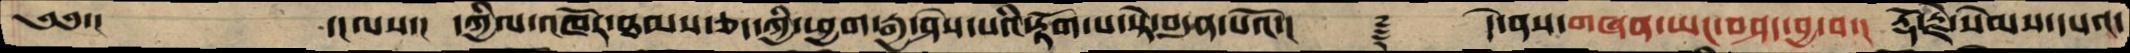༄༅་།         ་།ལས་།  དཀྱིལ་འཁོར་ཐམས་ཅད་ཀྱི་ཕྱག་རྒྱ་ཤེས་པའི་རྟོག་པ་སྟེ་བདུན་པའོ་།   ࿑   དེ་ནས་གཞན་ཡང་བཤད་བྱ་བ་།  རྡོ་རྗེ་སེམས་དཔའ་
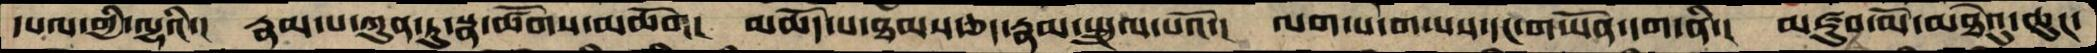དཔལ་གྱི་ལྷའི་།  རྣམ་པ་ཀུན་ཏུ་སྣ་ཚོགས་མཆོག།  མཆོད་པ་ཐམས་ཅད་རྣམ་སྤྲུལ་པའོ་།  ལག་པ་གཡས་དང་གཡོན་དག་ནི་།  མཛུབ་མོ་མཐེའུ་ཆུང་
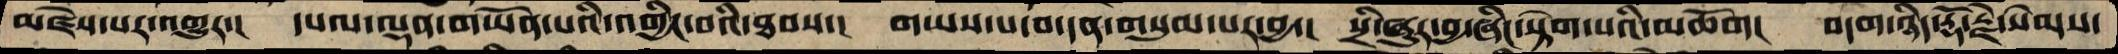མཛེས་པར་འགྱུར་།  དཔལ་ལྡན་གཡོན་པའི་འགྱིང་བའི་ཐབས་།  གཡས་པ་བ་དན་གསུམ་པར་བྱ་།  སྲི་ཞུར་བྱ་ཞིང་སྟེག་པའི་མཆོག།  བདག་ཉིད་རྡོ་རྗེ་སེམས་
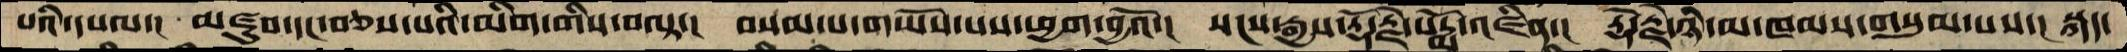པའི་དཔལ་།  མཛུབ་དང་བཅས་པའི་མིག་གིས་བལྟ་།  བསམ་པ་གཡོས་པས་ཕྱག་བྱའོ་།  སངས་རྒྱས་རྡོ་རྗེ་པདྨོ་འཛིན་།  རྡོ་རྗེ་ཉི་མ་ཁམས་གསུམ་པས་།  སྐད་
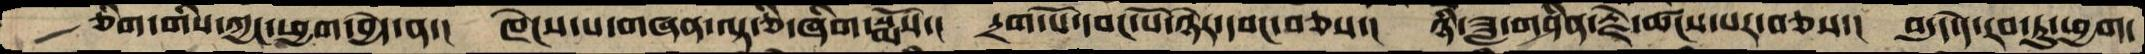ཅིག་གིས་ཀྱང་ཕྱག་བྱེད་ན་།  ཁེངས་པ་གཞན་ལྟ་ཅི་ཞིག་སྨོས་།  དྲག་པོ་དབང་པོ་ཉེར་དབང་བཅས་།  ཉི་ཟླ་གཤིན་རྗེ་ཚངས་པར་བཅས་།  བདུད་དེ་རབ་ཏུ་ཕྱག་
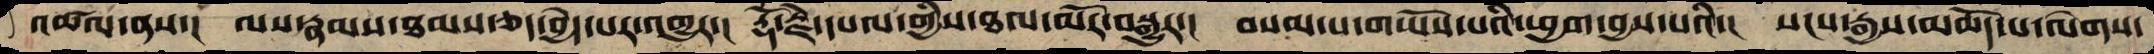འཚལ་ནས་།  ལས་རྣམས་ཐམས་ཅད་བྱེད་པར་འགྱུར་།  རྡོ་རྗེ་དཔལ་གྱིས་ཐལ་མོར་བསྒྱུར་།  བསམ་པ་གཡོས་པའི་ཕྱག་བྱས་པའི་།  སངས་རྒྱས་མཆོད་པ་ལེགས་
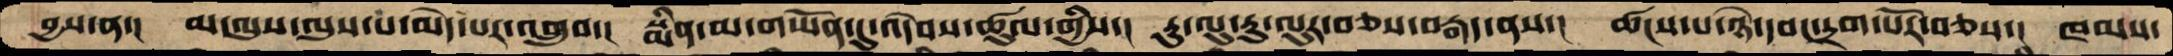བྱས་ན་།  མ་ལུས་ལུས་པ་མེད་པར་འགྲུབ་།  སྨིན་མ་གཡོན་དུ་འདེབས་ཚུལ་གྱིས་།  རུ་ལུ་རུ་ལུར་བཅས་བརྒད་ནས་།  ཚངས་པ་ཉེ་དབང་དྲག་པོར་བཅས་།  ཁམས་
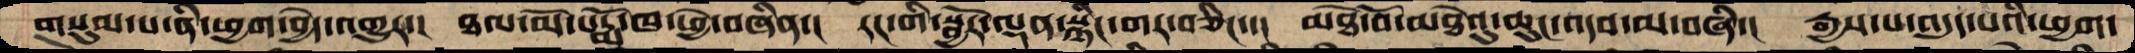གསུམ་པ་ནི་ཕྱག་བྱེད་འགྱུར་།  ཐལ་མོ་པདྨོ་ཁ་ཕྱེ་བཞིན་།  རང་གི་སྦྱོར་ལྡན་སྙིང་གར་བཅིང་་།  མཐེ་བོ་མཐེའུ་ཆུང་འདབ་མ་བཞི་།  རྒྱས་པ་འདུད་པའི་ཕྱག་
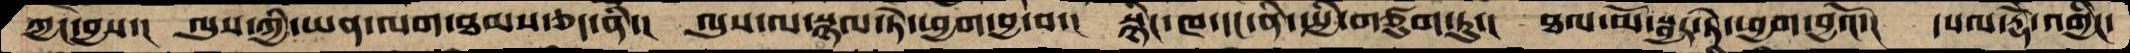ཀྱང་བྱས་།  ལུས་ཀྱི་ཡན་ལག་ཐམས་ཅད་ནི་།  ལུས་ལ་སྙལ་ཏེ་ཕྱག་བྱ་བ་།  སྙིང་ཁ་དང་ནི་སྤྱི་གཙུག་ཏུ་།   ཐལ་མོ་སྦྱར་ཏེ་ཕྱག་བྱའོ་།  དཔལ་རྡོེ་འགྱིང་
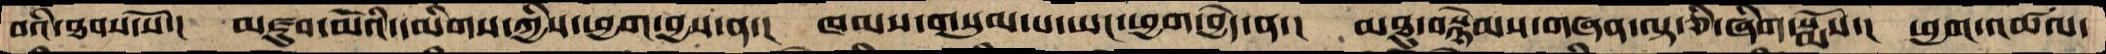བའི་ཐབས་སོ་།   མཛུབ་མོའི་དམིགས་ཀྱིས་ཕྱག་བྱས་ན་།  ཁམས་གསུམ་པ་ཡང་ཕྱག་བྱེད་ན་།  མཐུ་བསྙེམས་གཞན་ལྟ་ཅི་ཞིག་སྨོས་།  ཕྱག་འཚལ་
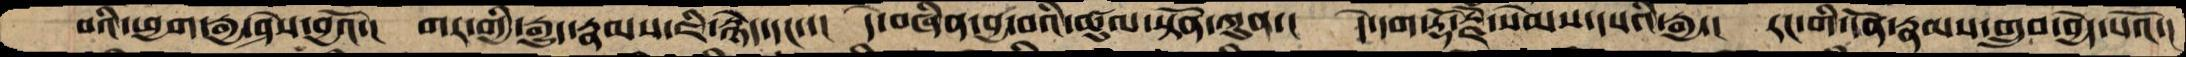པའི་ཕྱག་རྒྱ་ཤེས་བྱའོ་།  གར་གྱི་རྒྱུད་རྣམས་ཇི་སྙེད་དང་་།  དེ་བཞིན་བྱ་བའི་ཚུལ་སྟོན་ཀུན་།  དེ་དག་རྡོ་རྗེ་སེམས་དཔའི་རྒྱ་།  རང་གི་དོན་རྣམས་གྲུབ་བྱེད་པའོ་།
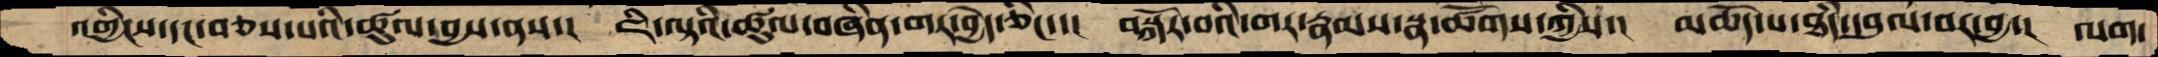འགྱིངས་དང་བཅས་པའི་ཚུལ་བྱས་ནས་།  ཇི་ལྟའི་ཚུལ་བཞིན་གར་བྱེད་ཅིང་་།  བསྐོར་བའི་གར་རྣམས་སྣ་ཚོགས་ཀྱིས་།  མཆོད་པ་ཐཾད་དབུལ་བར་བྱ་།  ལག་
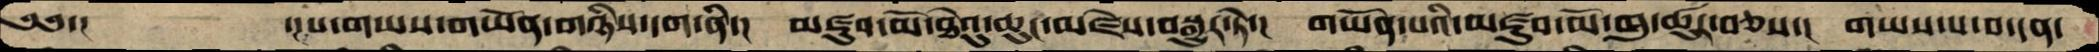༄༅་།       ་།པ་གཡས་གཡོན་གཉིས་དག་ནི་།  མཇུབ་མོ་ཐེའུ་ཆུང་མཛེས་བསྒྱུར་ཏེ་།  གཡོན་པའི་མཛུབ་མོ་ཁུ་ཚུར་བཅས་།  གཡས་པ་བ་དན་
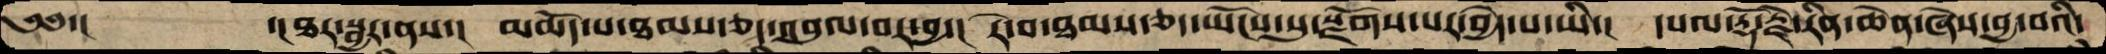༄༅་།        ་།ཐར་སྦྱར་ནས་།  མཆོད་པ་ཐམས་ཅད་འབུལ་བར་བྱ་།  རེ་བ་ཐམས་ཅད་ཡོངས་སུ་སྫོགས་པར་བྱེད་པ་ཡི་།  དཔལ་རྡོ་རྗེ་རིན་ཆེན་ཞེས་བྱ་བའི་
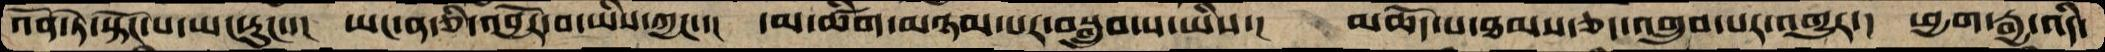འོན་ཏེ་སྟོང་པ་ཡང་རུངས།  ཡང་ན་ཅི་འབྱོར་བ་ཡིས་ཀྱང་་།  དམ་ཚིག་མཉམ་པར་བསྒྲུབ་པ་ཡིས་།   མཆོད་པ་ཐམས་ཅད་འགྲུབ་པར་འགྱུར་།  ཕྱག་རྒྱ་འདི་
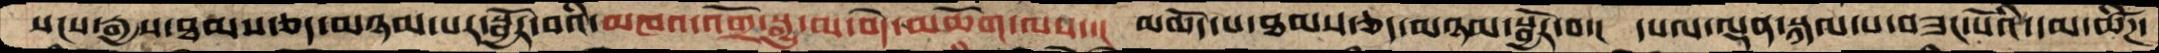སངས་རྒྱས་ཐམས་ཅད་མཉམ་པར་སྦྱོར་བའི་མཁའ་འགྲོ་སྒྱུ་མ་བདེ་མཆོག་ལས་།  མཆོད་པ་ཐམས་ཅད་མཉམ་སྦྱོར་བ་།  དཔལ་ལྡན་སྐལ་པ་བཟང་པོའི་དམ་ཚིཌ་
